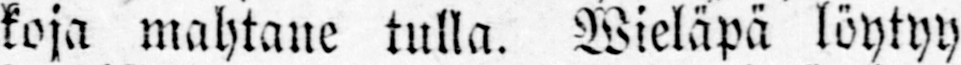koja mahtane tulla. Wieläpä löytyy
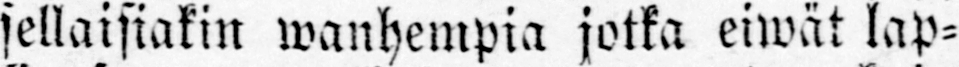sellaisiakin wanhempia jotka eiwät lap-
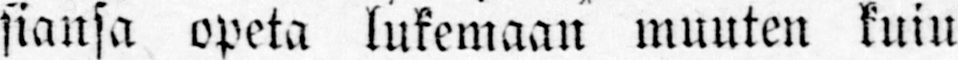siansa opeta lukemaan muuten kuin
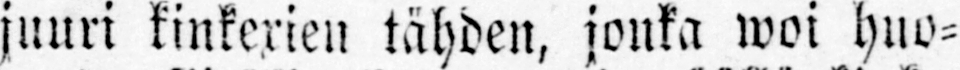juuri kinterien tähden, jonka woi huo-
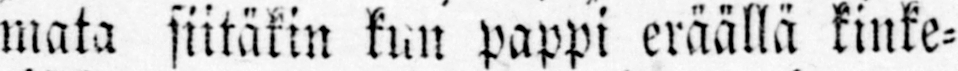mata siitäkin kun pappi eräällä kinke-
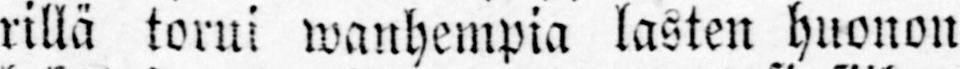rillä torui wanhempia lasten huonon
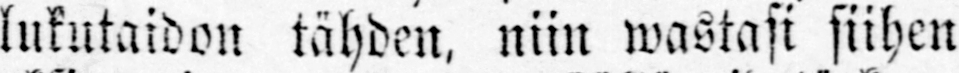lukutaidon tähden, niin wastasi siihen
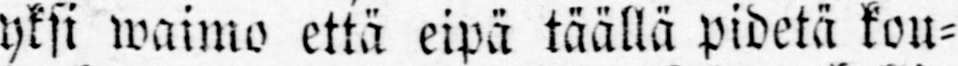yksi waimo että eipä täällä pidetä kou-
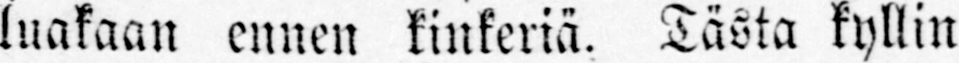luakaan ennen kinkeriä. Tästä kyllin
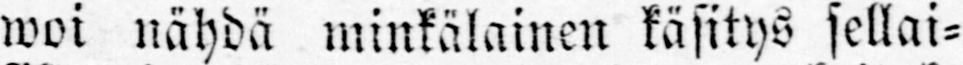woi nähdä minkälainen käsitys sellai-
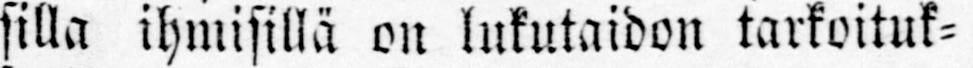silla ihmisillä on lukutaidon tarkoituk-
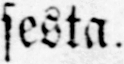sesta.
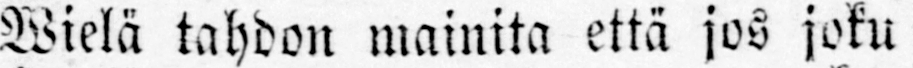Wielä tahdon mainita että jos joku
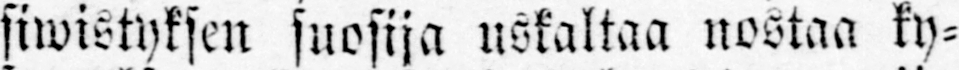siwistyksen suosija uskaltaa nostaa ky-
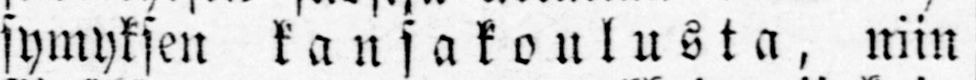symyksen kansakou lusta, niin
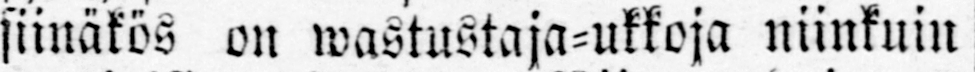siinäkös on wastustaja-ukkoja niinkuin
